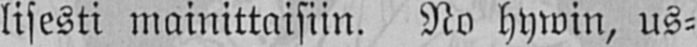lisesti mainittaisiin. No hywin, us-
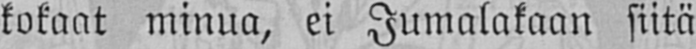kokaat minua, ei Jumalakaan siitä
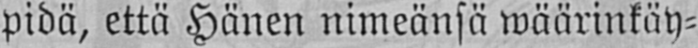pidä, että Hänen nimeänsä wäärinkäy-
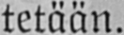tetään.
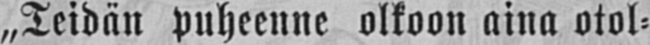„Teidän puheenne olkoon aina otol-
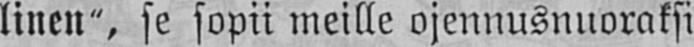linen", se sopii meille ojennusnuoraksi
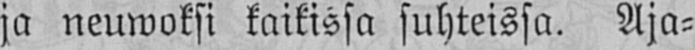ja neuwoksi kaikissa suhteissa. Aja-
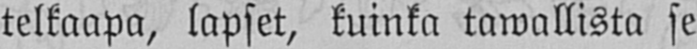telkaapa, lapset, kuinka tawallista se
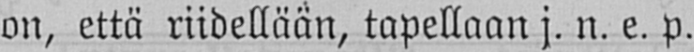on, että riidellään, tapellaan j. n. e. p.
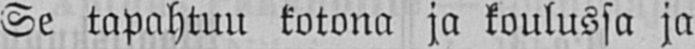Se tapahtuu kotona ja koulussa ja
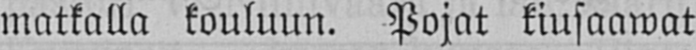matkalla kouluun. Pojat kiusaawat
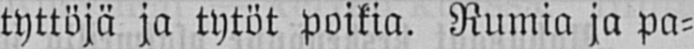tyttöjä ja tytöt poikia. Rumia ja pa-
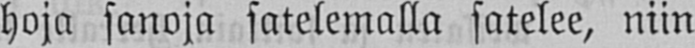hoja sanoja satelemalla satelee, niin
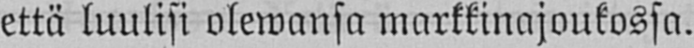että luulisi olewansa markkinajoukossa.
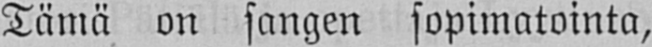Tämä on sangen sopimatointa,
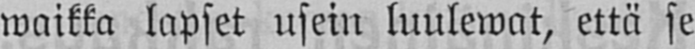waikka lapset usein luulewat, että se
